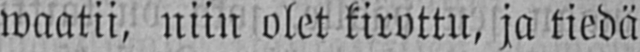waatii, niin olet kirottu, ja tiedä
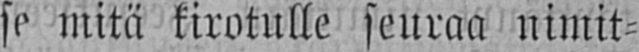se mitä kirotulle seuraa nimit-
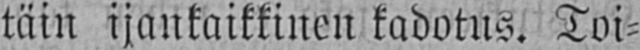täin ijankaikkinen kadotus. Toi-
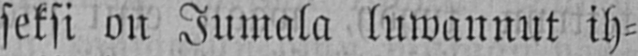seksi on Jumala lawannut ih-
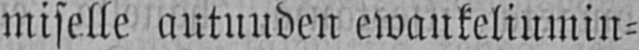miselle autuuden ewankeliumin-
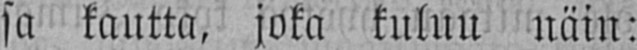sa kautta, joka kuluu näin:
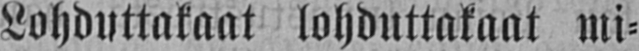Lohduttakaat lohduttakaat mi-
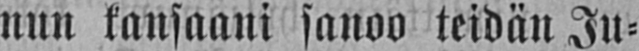nun kansaani sanoo teidän Ju-
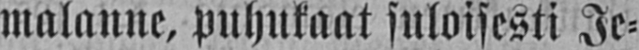malanne, puhukaat suloisesti Je-
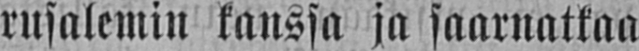rusalemin kanssa ja saarnatkaa
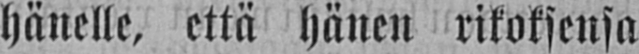hänelle, että hänen rikoksensa
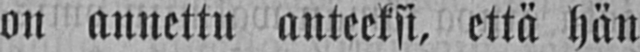on annettu anteeksi, että hän
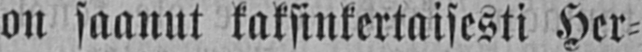on saanut kaksinkertaisesti Her-
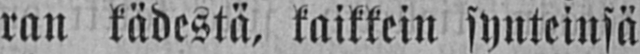ran kädestä, kaikkein synteinsä
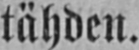tähden.
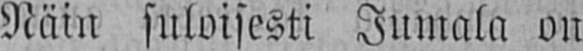Näin suloisesti Jumala on
